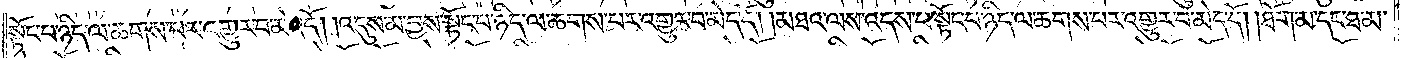སྟོང་པ་ཉིད་ལ་ཆགས་པར་འགྱུར་བ་མེད་དོ། །འདུས་མ་བྱས་སྟོང་པ་ཉིད་ལ་ཆགས་པར་འགྱུར་བ་མེད་དོ། །མཐའ་ལས་འདས་པ་སྟོང་པ་ཉིད་ལ་ཆགས་པར་འགྱུར་བ་མེད་དོ། །ཐོག་མ་དང་ཐ་མ་
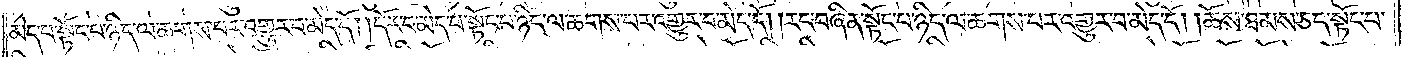མེད་པ་སྟོང་པ་ཉིད་ལ་ཆགས་པར་འགྱུར་བ་མེད་དོ། །དོར་བ་མེད་པ་སྟོང་པ་ཉིད་ལ་ཆགས་པར་འགྱུར་བ་མེད་དོ། །རང་བཞིན་སྟོང་པ་ཉིད་ལ་ཆགས་པར་འགྱུར་བ་མེད་དོ། །ཆོས་ཐམས་ཅད་སྟོང་པ་
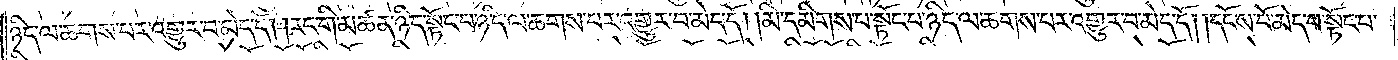ཉིད་ལ་ཆགས་པར་འགྱུར་བ་མེད་དོ། །རང་གི་མཚན་ཉིད་སྟོང་པ་ཉིད་ལ་ཆགས་པར་འགྱུར་བ་མེད་དོ། །མི་དམིགས་པ་སྟོང་པ་ཉིད་ལ་ཆགས་པར་འགྱུར་བ་མེད་དོ། །དངོས་པོ་མེད་པ་སྟོང་པ་
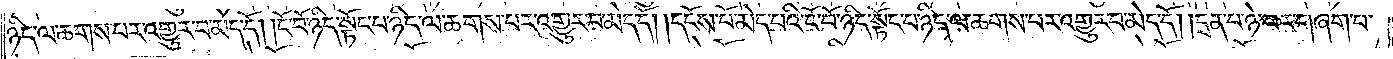ཉིད་ལ་ཆགས་པར་འགྱུར་བ་མེད་དོ། །ངོ་བོ་ཉིད་སྟོང་པ་ཉིད་ལ་ཆགས་པར་འགྱུར་བ་མེད་དོ། །དངོས་པོ་མེད་པའི་ངོ་བོ་ཉིད་སྟོང་པ་ཉིད་ལ་ཆགས་པར་འགྱུར་བ་མེད་དོ། །དྲན་པ་ཉེ་བར་གཞག་པ་
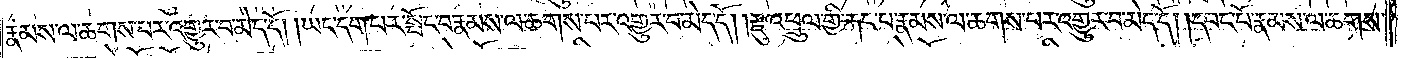རྣམས་ལ་ཆགས་པར་འགྱུར་བ་མེད་དོ། །ཡང་དག་པར་སྤོང་བ་རྣམས་ལ་ཆགས་པར་འགྱུར་བ་མེད་དོ། །རྫུ་འཕྲུལ་གྱི་རྐང་པ་རྣམས་ལ་ཆགས་པར་འགྱུར་བ་མེད་དོ། །དབང་པོ་རྣམས་ལ་ཆགས་
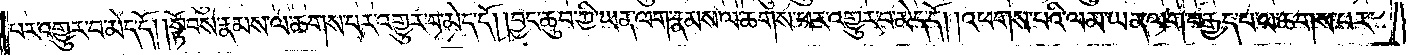པར་འགྱུར་བ་མེད་དོ། །སྟོབས་རྣམས་ལ་ཆགས་པར་འགྱུར་བ་མེད་དོ། །བྱང་ཆུབ་ཀྱི་ཡན་ལག་རྣམས་ལ་ཆགས་པར་འགྱུར་བ་མེད་དོ། །འཕགས་པའི་ལམ་ཡན་ལག་བརྒྱད་པ་ལ་ཆགས་པར་
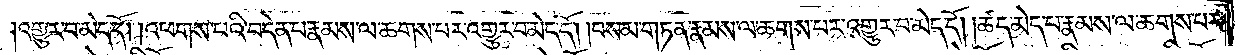འགྱུར་བ་མེད་དོ། །འཕགས་པའི་བདེན་པ་རྣམས་ལ་ཆགས་པར་འགྱུར་བ་མེད་དོ། །བསམ་གཏན་རྣམས་ལ་ཆགས་པར་འགྱུར་བ་མེད་དོ། །ཚད་མེད་པ་རྣམས་ལ་ཆགས་པར་
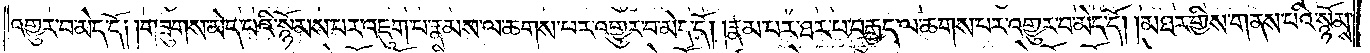འགྱུར་བ་མེད་དོ། །གཟུགས་མེད་པའི་སྙོམས་པར་འཇུག་པ་རྣམས་ལ་ཆགས་པར་འགྱུར་བ་མེད་དོ། །རྣམ་པར་ཐར་པ་བརྒྱད་ལ་ཆགས་པར་འགྱུར་བ་མེད་དོ། །མཐར་གྱིས་གནས་པའི་སྙོམས་
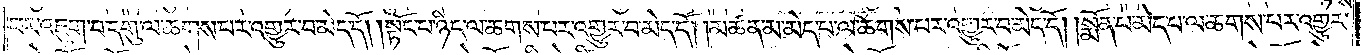པར་འཇུག་པ་དགུ་ལ་ཆགས་པར་འགྱུར་བ་མེད་དོ། །སྟོང་པ་ཉིད་ལ་ཆགས་པར་འགྱུར་བ་མེད་དོ། །མཚན་མ་མེད་པ་ལ་ཆགས་པར་འགྱུར་བ་མེད་དོ། །སྨོན་པ་མེད་པ་ལ་ཆགས་པར་འགྱུར་
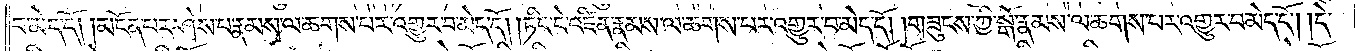བ་མེད་དོ། །མངོན་པར་ཤེས་པ་རྣམས་ལ་ཆགས་པར་འགྱུར་བ་མེད་དོ། །ཏིང་ངེ་འཛིན་རྣམས་ལ་ཆགས་པར་འགྱུར་བ་མེད་དོ། །གཟུངས་ཀྱི་སྒོ་རྣམས་ལ་ཆགས་པར་འགྱུར་བ་མེད་དོ། །དེ་
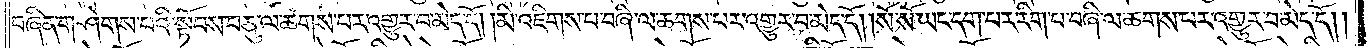བཞིན་གཤེགས་པའི་སྟོབས་བཅུ་ལ་ཆགས་པར་འགྱུར་བ་མེད་དོ། །མི་འཇིགས་པ་བཞི་ལ་ཆགས་པར་འགྱུར་བ་མེད་དོ། །སོ་སོ་ཡང་དག་པར་རིག་པ་བཞི་ལ་ཆགས་པར་འགྱུར་བ་མེད་དོ། །
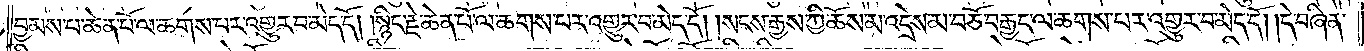བྱམས་པ་ཆེན་པོ་ལ་ཆགས་པར་འགྱུར་བ་མེད་དོ། །སྙིང་རྗེ་ཆེན་པོ་ལ་ཆགས་པར་འགྱུར་བ་མེད་དོ། །སངས་རྒྱས་ཀྱི་ཆོས་མ་འདྲེས་མ་བཅོ་བརྒྱད་ལ་ཆགས་པར་འགྱུར་བ་མེད་དོ། །དེ་བཞིན་
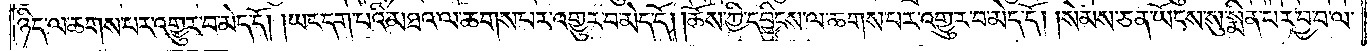ཉིད་ལ་ཆགས་པར་འགྱུར་བ་མེད་དོ། །ཡང་དག་པའི་མཐའ་ལ་ཆགས་པར་འགྱུར་བ་མེད་དོ། །ཆོས་ཀྱི་དབྱིངས་ལ་ཆགས་པར་འགྱུར་བ་མེད་དོ། །སེམས་ཅན་ཡོངས་སུ་སྨིན་པར་བྱ་བ་ལ་
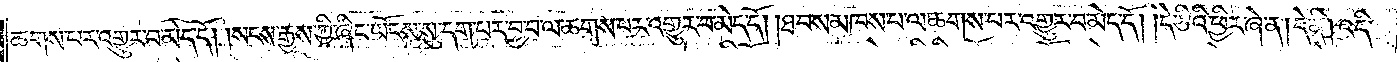ཆགས་པར་འགྱུར་བ་མེད་དོ། །སངས་རྒྱས་ཀྱི་ཞིང་ཡོངས་སུ་དག་པར་བྱ་བ་ལ་ཆགས་པར་འགྱུར་བ་མེད་དོ། །ཐབས་མཁས་པ་ལ་ཆགས་པར་འགྱུར་བ་མེད་དོ། །དེ་ཅིའི་ཕྱིར་ཞེ་ན། དེ་ནི། འདི་
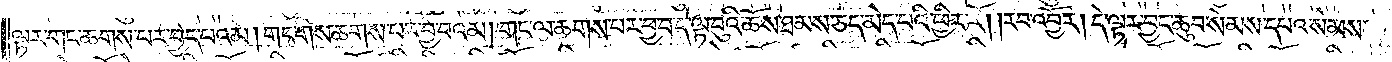ལྟར་གང་ཆགས་པར་བྱེད་པའམ། གང་གིས་ཆགས་པར་བྱ་བའམ། གང་ལ་ཆགས་པར་བྱ་བ་དེ་ལྟ་བུའི་ཆོས་ཐམས་ཅད་མེད་པའི་ཕྱིར་རོ། །རབ་འབྱོར། དེ་ལྟར་བྱང་ཆུབ་སེམས་དཔའ་སེམས་
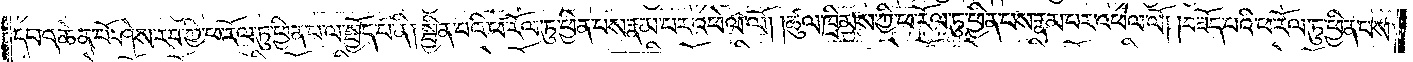དཔའ་ཆེན་པོ་ཤེས་རབ་ཀྱི་ཕ་རོལ་ཏུ་ཕྱིན་པ་ལ་སྤྱོད་པ་ནི། སྦྱིན་པའི་ཕ་རོལ་ཏུ་ཕྱིན་པས་རྣམ་པར་འཕེལ་ལོ། །ཚུལ་ཁྲིམས་ཀྱི་ཕ་རོལ་ཏུ་ཕྱིན་པས་རྣམ་པར་འཕེལ་ལོ། །བཟོད་པའི་ཕ་རོལ་ཏུ་ཕྱིན་པས་
